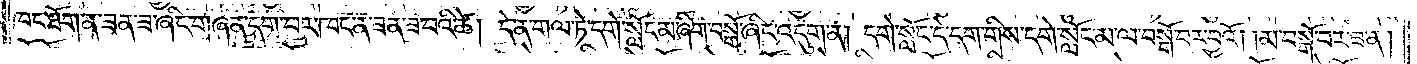ཁང་ཐོག་ན་ཟན་ཟ་ཞིང་གཞན་དག་པར་ཁང་ན་ཟན་ཟ་བའི་ཚེ། དེ་ན་གལ་ཏེ་དགེ་སློང་མ་ཞིག་བསྒོ་ཞིང་འདུག་ན། དགེ་སློང་དེ་དག་གིས་དགེ་སློང་མ་ལ་བསྒོ་བར་བྱའོ། །མ་བསྒོ་བར་ཟ་ན།
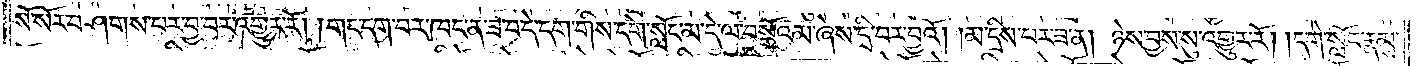སོ་སོར་བཤགས་པར་བྱ་བར་འགྱུར་རོ། །གང་དག་པར་ཁང་ན་ཟ་བ་དེ་དག་གིས་དགེ་སློང་མ་དེ་ལ་བསྒོའམ་ཞེས་དྲི་བར་བྱའོ། །མ་དྲིས་པར་ཟ་ན། ཉེས་བྱས་སུ་འགྱུར་རོ། །དགེ་སློང་རྣམས་
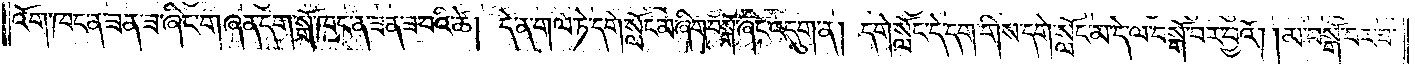འོག་ཁང་ན་ཟན་ཟ་ཞིང་གཞན་དག་སྒོ་ཁང་ན་ཟན་ཟ་བའི་ཚེ། དེ་ན་གལ་ཏེ་དགེ་སློང་མ་ཞིག་བསྒོ་ཞིང་འདུག་ན། དགེ་སློང་དེ་དག་གིས་དགེ་སློང་མ་དེ་ལ་བསྒོ་བར་བྱའོ། །མ་བསྒོ་བར་ཟ་
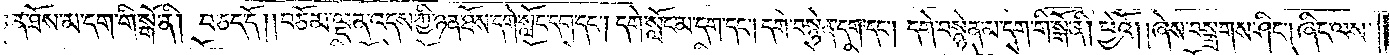ཉན་ཐོས་མ་དག་གི་སྒོ་ནི། བཅད་དོ། །བཅོམ་ལྡན་འདས་ཀྱི་ཉན་ཐོས་དགེ་སློང་དག་དང༌། དགེ་སློང་མ་དག་དང༌། དགེ་བསྙེན་དག་དང༌། དགེ་བསྙེན་མ་དག་གི་སྒོ་ནི། ཕྱེའོ། །ཞེས་བསྒྲགས་ཤིང༌། ཞིང་ལས་
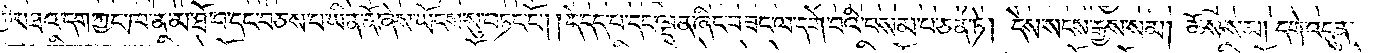ཀྱི་མཐའ་དག་ཀྱང་ཁ་ན་མ་ཐོ་བ་དང་བཅས་པ་ཡིན་ནོ་ཞེས་ཡོངས་སུ་བཏང་ངོ༌། །དེ་དད་པ་དང་ལྡན་ཞིང་བཟང་ལ་དགེ་བའི་བསམ་པ་ཅན་ཏེ། དེས་སངས་རྒྱས་སམ། ཆོས་སམ། དགེ་འདུན་
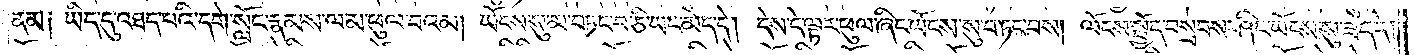ནམ། ཡིད་དུ་འཐད་པའི་དགེ་སློང་རྣམས་ལ་མ་ཕུལ་བའམ། ཡོངས་སུ་མ་བཏང་བ་ཅི་ཡང་མེད་དེ། དེས་དེ་ལྟར་ཕུལ་ཞིང་ཡོངས་སུ་བཏང་བས། ལོངས་སྤྱོད་བསྲབས་ཤིང་ཡོངས་སུ་ཟད་དེ།
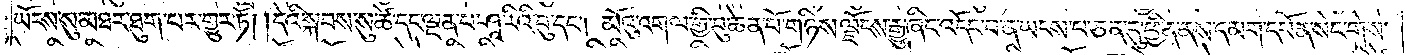ཡོངས་སུ་མཐར་ཐུག་པར་གྱུར་ཏོ། དེའི་སྐབས་སུ་ཚེ་དང་ལྡན་པ་ཤཱ་རིའི་བུ་དང༌། མོའུ་འགལ་གྱི་བུ་ཆེན་པོ་གཉིས་ལྗོངས་རྒྱུ་ཞིང་འདོང་བ་ན་ཡངས་པ་ཅན་དུ་ཕྱིན་ནས་དམག་དཔོན་སེང་གེས་
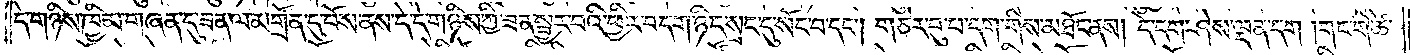དེ་གཉིས་ཁྱིམ་གཞན་དུ་ཟན་ལ་མགྲོན་དུ་བོས་ནས་དེ་དེ་གཉིས་ཀྱི་ཟན་སྦྱར་བའི་ཕྱིར་བདག་ཉིད་སྲང་དུ་སོང་བ་དང༌། གཅེར་བུ་བདག་གིས་མཐོང་ནས། དེ་དག་ཤེས་ལྡན་དག །གང་གི་ཚེ་
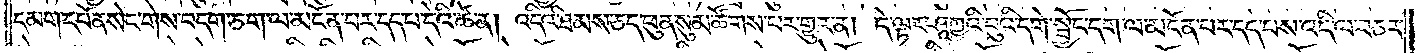དམག་དཔོན་སེང་གེས་བདག་ཅག་ལ་མངོན་པར་དད་པ་དེའི་ཚེ་ན། འདིའི་ཐམས་ཅད་ཕུན་སུམ་ཚོགས་པར་གྱུར་ན། དེ་ལྟར་ཤཱཀྱའི་བུའི་དགེ་སྦྱོང་དག་ལ་མངོན་པར་དད་པས་འདི་ལ་བཅར་
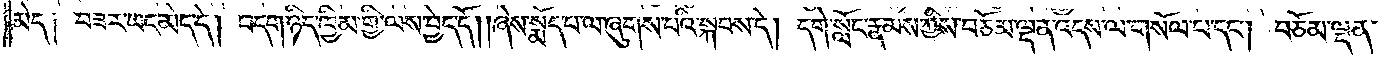མེད༑ བཟར་ཡང་མེད་དེ། བདག་ཉིད་ཁྱིམ་གྱི་ལས་བྱེད་དོ། །ཞེས་སྨོད་པ་ལ་ཞུགས་པའི་སྐབས་དེ། དགེ་སློང་རྣམས་ཀྱིས་བཅོམ་ལྡན་འདས་ལ་གསོལ་པ་དང༌། བཅོམ་ལྡན་
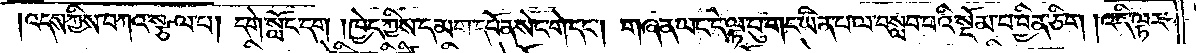འདས་ཀྱིས་བཀའ་སྩལ་པ། དགེ་སློང་དག །ཁྱེད་ཀྱིས་དམག་དཔོན་སེང་གེ་དང༌། གཞན་ཡང་དེ་ལྟ་བུ་གང་ཡིན་པ་ལ་བསླབ་པའི་སྡོམ་པ་བྱིན་ཅིག །འདི་ལྟར་
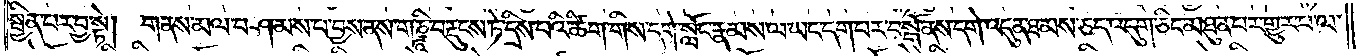སྦྱིན་པར་བྱ་སྟེ། གནས་མལ་བཤམས་པ་བྱས་ནས་གཎྜཱི་བརྡུངས་ཏེ་དྲིས་པའི་ཚིག་གིས་དགེ་སློང་རྣམས་ལ་ཡང་དག་པར་བསྒོ་ནས་དགེ་འདུན་ཐམས་ཅད་འདུག་ཅིང་མཐུན་པར་གྱུར་པ་ལ་
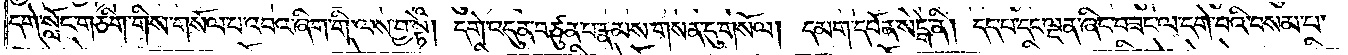དགེ་སློང་གཅིག་གིས་གསོལ་བ་འབའ་ཞིག་གི་ལས་བྱ་སྟེ། དགེ་འདུན་བཙུན་པ་རྣམས་གསན་དུ་གསོལ། དམག་དཔོན་སེངྒེ་ནི། དད་པ་དང་ལྡན་ཞིང་བཟང་ལ་དགེ་བའི་བསམ་པ་
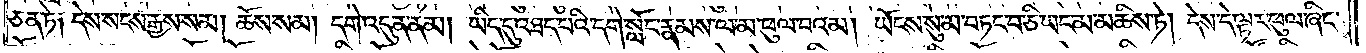ཅན་ཏེ། དེས་སངས་རྒྱས་སམ། ཆོས་སམ། དགེ་འདུན་ནམ། ཡིད་དུ་འཐད་པའི་དགེ་སློང་རྣམས་ལ་མ་ཕུལ་བའམ། ཡོངས་སུ་མ་བཏང་བ་ཅི་ཡང་མ་མཆིས་ཏེ། དེས་དེ་ལྟར་ཕུལ་ཞིང་
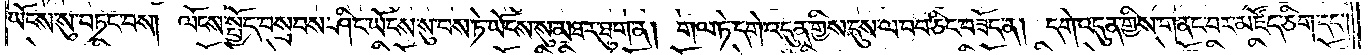ཡོངས་སུ་བཏང་བས། ལོངས་སྤྱོད་བསྲབས་ཤིང་ཡོངས་སུ་བས་ཏེ་ཡོངས་སུ་མཐར་ཐུག་ན། གལ་ཏེ་དགེ་འདུན་གྱིས་དུས་ལ་བབ་ཅིང་བཟོད་ན། དགེ་འདུན་གྱིས་གནང་བར་མཛོད་ཅིག་དང༌།
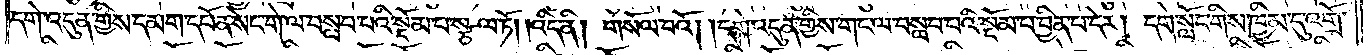དགེ་འདུན་གྱིས་དམག་དཔོན་སེང་གེ་ལ་བསླབ་པའི་སྡོམ་པ་སྩལ་ཏོ། །འདི་ནི། གསོལ་བའོ། །དགེ་འདུན་གྱིས་གང་ལ་བསླབ་པའི་སྡོམ་པ་བྱིན་པ་དེར། དགེ་སློང་གིས་ཁྱིམ་དུ་འགྲོ་
